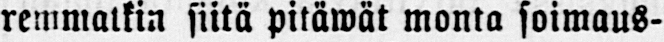remmatkin siitä pitäwät monta soimaus-
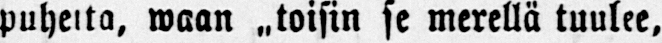puheita, waan ˶toisin se merellä tuulee,
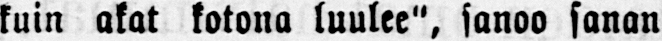kuin akat kotona luulee", sanoo sanan
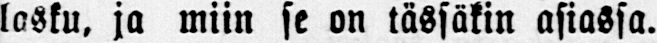lasku, ja miin se on tässäkin asiassa.
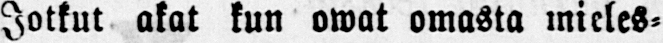Jotkut akat kun owat omasta mieles-
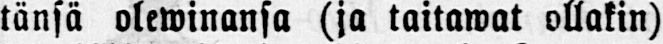tänsä olewinansa (ja taitawat ollakin)
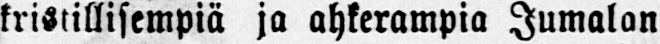kristillisempiä ja ahkerampia Jumalan
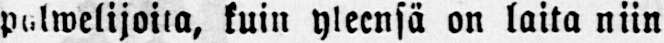pulwelijoita, kuin yleensä on laita niin
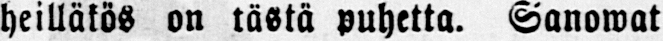heilläkös on tästä puhetta. Sanowat
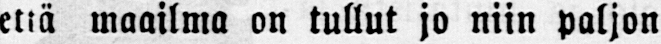että maailma on tullut jo niin paljon
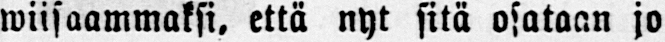wiisaammaksi, että nyt sitä osataan jo
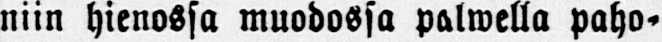niin hienossa muodossa palwella paho-
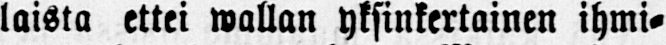laista ettei wallan yksinkertainen ihmi-
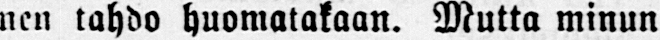nen tahdo huomatakaan. Mutta minun
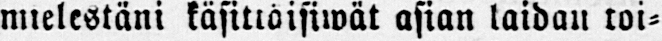mielestäni käsittäisiwät asian laidan toi-
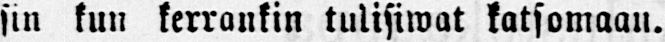sin kun kerrankin tulisiwat katsomaan.
